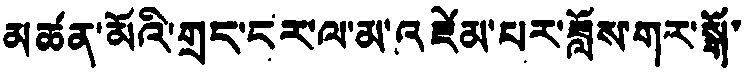མཚན་མོའི་གྲང་ངར་ལ་མ་འཛེམ་པར་ཟློས་གར་སྒོ་
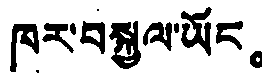ཁར་བསྐྱལ་ཡོང。
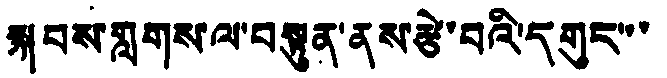སྐབས་གླགས་ལ་བསྟུན་ནས་རྩེ་བའི་དགུང་་་
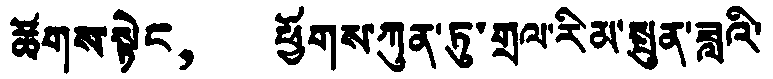ཚོགས་སྟེང， ཕྱོགས་ཀུན་ཏུ་གྲལ་རི་མ་སྤུན་ཟླའི་
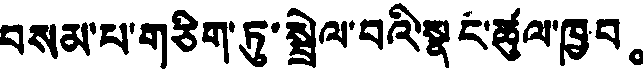བསམ་པ་གཅིག་ཏུ་སྦྲེལ་བའི་སྣང་ཚུལ་ཁྱབ。
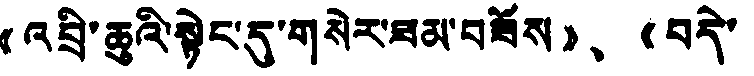《འབྲི་ཆུའི་སྟེང་དུ་གསེར་ཟམ་བཟོས》、《བདེ་
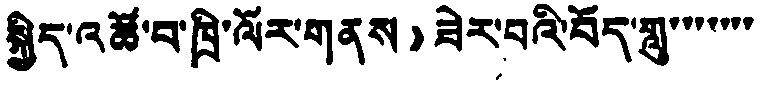སྐྱིད་འཚོ་བ་ཁྲི་ལོར་གནས》ཟེར་བའི་བོད་གླུ་་་་་་་་
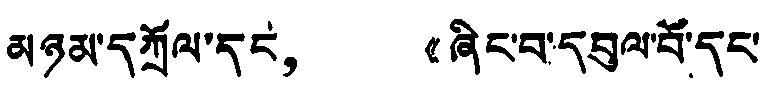མཉམ་དཀྲོལ་དང， 《ཞིང་བ་དབུལ་བོ་དང་
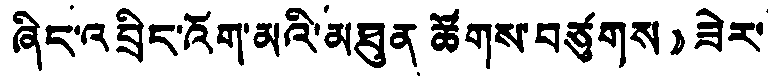ཞིང་འབྲིང་འོག་མའི་མཐུན ཚོགས་བཙུགས》ཟེར་
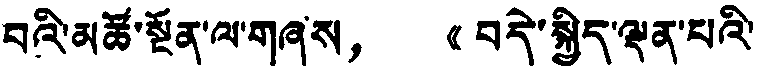བའི་མཚོ་སྔོན་ལ་གཞས， 《བདེ་སྐྱིད་ལྡན་པའི་
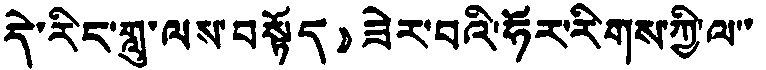དེ་རིང་གླུ་ལས་བསྟོད》ཟེར་བའི་ཧོར་རིགས་ཀྱི་ལ་་
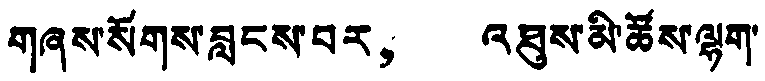གཞས་སོགས་བླངས་བར， འཐུས་མི་ཚོས་ལྷག་
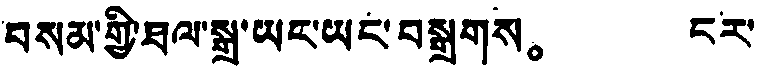བསམ་གྱི་ཐལ་སྒྲ་ཡང་ཡང་བསྒྲགས。 ངར་
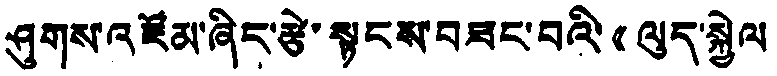ཤུགས་འཛོམ་ཞིང་རྩེ་སྟངས་བཟང་བའི་《ལུད་སྐྱེལ་
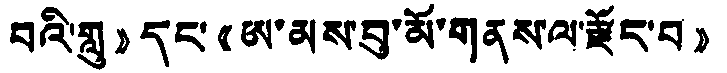བའི་གླུ》དང་《ཨ་མས་བུ་མོ་གནས་ལ་རྫོང་བ》
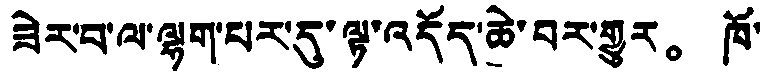ཟེར་བ་ལ་ལྷག་པར་དུ་ལྟ་འདོད་ཆེ་བར་གྱུར。 ཁོ་
